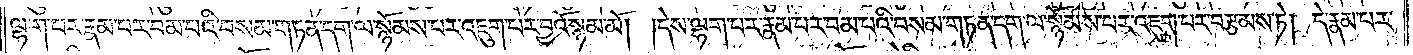ལྷག་པར་རྣམ་པར་བམ་པའི་བསམ་གཏན་དག་ལ་སྙོམས་པར་འཇུག་པར་བྱའོ་སྙམ་མོ། །དེས་ལྷག་པར་རྣམ་པར་བམ་པའི་བསམ་གཏན་དག་ལ་སྙོམས་པར་འཇུག་པར་བརྩམས་ཏེ། དེ་རྣམ་པར་
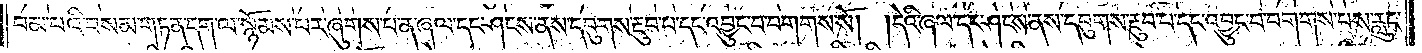བམ་པའི་བསམ་གཏན་དག་ལ་སྙོམས་པར་ཞུགས་པ་ན་ཞལ་དང་ཤངས་ནས་དབུགས་རྔུབ་པ་དང་འབྱུང་བ་བགགས་སོ། །དེའི་ཞལ་དང་ཤངས་ནས་དབུགས་རྔུབ་པ་དང་འབྱུང་བ་བགགས་པས་རླུང་
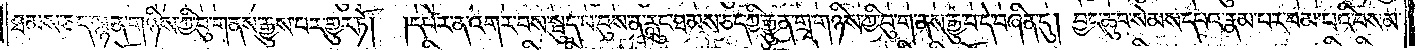ཐམས་ཅད་སྙན་གཉིས་ཀྱི་བུ་ནས་རྒྱུས་པར་གྱུར་ཏོ།  །དཔེར་ན་འགར་བས་སྦུད་པ་བུས་ན་རླུང་ཐམས་ཅད་ཀྱི་རྒྱུན་གྲྭ་གཉིས་ཀྱི་བུ་ནས་རྒྱུ་བ་དེ་བཞིན་དུ། བྱང་ཆུབ་སེམས་དཔའ་རྣམ་པར་བམ་པའི་བསམ་
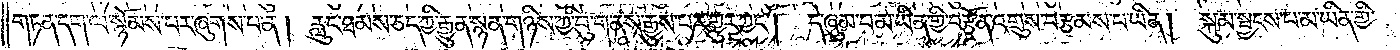གཏན་དག་ལ་སྙོམས་པར་ཞུགས་པ་ན། རླུང་ཐམས་ཅད་ཀྱི་རྒྱུན་སྙན་གཉིས་ཀྱི་བུ་གནས་རྒྱུས་པར་གྱུར་ཀྱང༌། དེ་ཞུམ་པ་མ་ཡིན་གྱི་བརྩོན་འགྲུས་བརྩམས་པ་ཡིན། སྐུ་མ་སྦྱངས་པ་མ་ཡིན་གྱི་
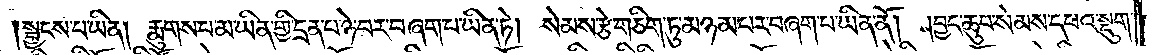སྦྱངས་པ་ཡིན། རྨུགས་པ་མ་ཡིན་གྱི་དྲན་པ་ཉེ་བར་བཞག་པ་ཡིན་ཏེ། སེམས་རྩེ་གཅིག་ཏུ་མཉམ་པར་བཞག་པ་ཡིན་ནོ། །བྱང་ཆུབ་སེམས་དཔའ་སྡུག་
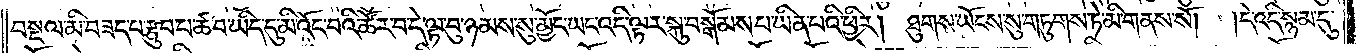བསྔལ་མི་བཟད་པ་རྩུབ་པ་ཚ་བ་ཡིད་དུ་མི་འོང་བའི་ཚོར་བ་དེ་ལྟ་བུ་ཉམས་སུ་མྱོང་ཡང་འདི་ལྟར་སྐུ་བསྒོམས་པ་ཡིན་པའི་ཕྱིར། ཐུགས་ཡོངས་སུ་གཏུགས་ཏེ་མི་གནས་སོ། །དེ་འདི་སྙམ་དུ་
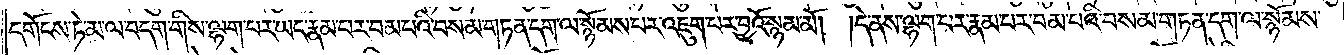དགོངས་ཏེ་མ་ལ་བདག་གིས་ལྷག་པར་ཡང་རྣམ་པར་བམ་པའི་བསམ་གཏན་དག་ལ་སྙོམས་པར་འཇུག་པར་བྱའོ་སྙམ་མོ། །དེ་ནས་ལྷག་པར་རྣམ་པར་བམ་པའི་བསམ་གཏན་དག་ལ་སྙོམས་
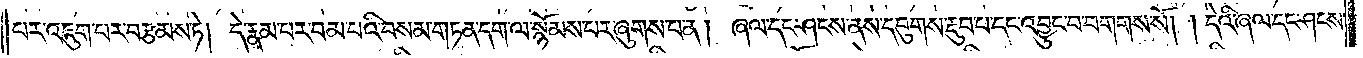པར་འཇུག་པར་བརྩམས་ཏེ། དེ་རྣམ་པར་བམ་པའི་བསམ་གཏན་དག་ལ་སྙོམས་པར་ཞུགས་པ་ན། ཞལ་དང་ཤངས་ནས་དབུགས་རྔུབ་པ་དང་འབྱུང་བ་བགགས་སོ། །དེའི་ཞལ་དང་ཤངས་
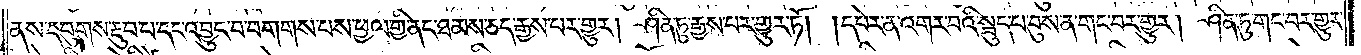ནས་དབུགས་རྔུབ་པ་དང་འབྱུང་བ་བགགས་པས་ཕྱལ་གྱི་ནང་ཐམས་ཅད་རྒྱས་པར་གྱུར། ཤིན་ཏུ་རྒྱས་པར་གྱུར་ཏོ། །དཔེར་ན་འགར་བའི་སྦུད་པ་བུས་ན་གང་བར་གྱུར། ཤིན་ཏུ་གང་བར་གྱུར་
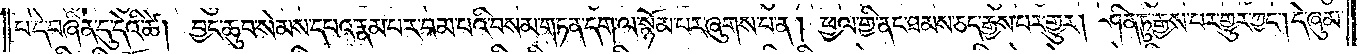པ་དེ་བཞིན་དུ་དེའི་ཚེ། བྱང་ཆུབ་སེམས་དཔའ་རྣམ་པར་བམ་པའི་བསམ་གཏན་དག་ལ་སྙོམས་པར་ཞུགས་པ་ན། ཕྱལ་གྱི་ནང་ཐམས་ཅད་རྒྱས་པར་གྱུར། ཤིན་ཏུ་རྒྱས་པར་གྱུར་ཀྱང༌། དེ་ཞུམ་
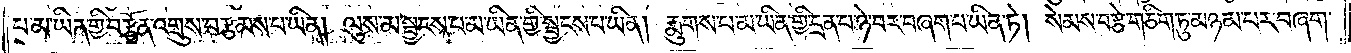པ་མ་ཡིན་གྱི་བརྩོན་འགྲུས་བརྩམས་པ་ཡིན། ལུས་མ་སྦྱངས་པ་མ་ཡིན་གྱི་སྦྱངས་པ་ཡིན། རྨུགས་པ་མ་ཡིན་གྱི་དྲན་པ་ཉེ་བར་བཞག་པ་ཡིན་ཏེ། སེམས་བརྩེ་གཅིག་ཏུ་མཉམ་པར་བཞག་
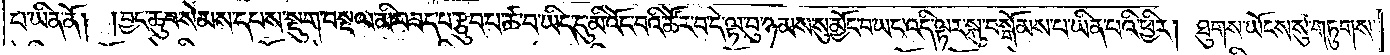པ་ཡིན་ནོ། །བྱང་ཆུབ་སེམས་དཔས་སྡུག་བསྔལ་མི་བཟད་པ་རྩུབ་པ་ཚ་བ་ཡིད་དུ་མི་འོང་བའི་ཚོར་བ་དེ་ལྟ་བུ་ཉམས་སུ་མྱོང་བ་ཡང་འདི་ལྟར་སྐུ་བསྒོམས་པ་ཡིན་པའི་ཕྱིར། ཐུགས་ཡོངས་སུ་གཏུགས་
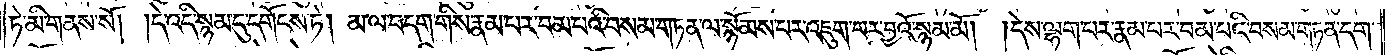ཏེ་མི་གནས་སོ། །དེ་འདི་སྙམ་དུ་དགོངས་ཏེ། མ་ལ་བདག་གིས་རྣམ་པར་བམ་པའི་བསམ་གཏན་ལ་སྙོམས་པར་འཇུག་པར་བྱའོ་སྙམ་མོ། །དེས་ལྷག་པར་རྣམ་པར་བམ་པའི་བསམ་གཏན་དག་
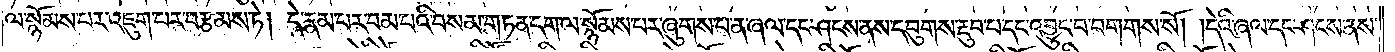ལ་སྙོམས་པར་འཇུག་པར་བརྩམས་ཏེ། དེ་རྣམ་པར་བམ་པའི་བསམ་གཏན་དག་ལ་སྙོམས་པར་ཞུགས་པ་ན་ཞལ་དང་ཤངས་ནས་དབུགས་རྔུབ་པ་དང་འབྱུང་བ་བགགས་སོ། །དེའི་ཞལ་དང་ཤངས་ནས་
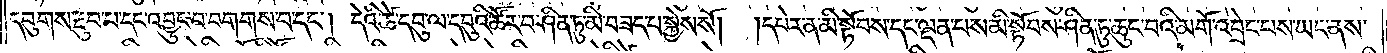དབུགས་རྔུབ་པ་དང་འབྱུང་བ་བགགས་པ་དང༌། དེའི་ཚེ་དབུ་ལ་དབུའི་ཚོར་བ་ཤིན་ཏུ་མི་བཟད་པ་སྐྱེས་སོ། །དཔེར་ན་མི་སྟོབས་དང་ལྡན་པས་མི་སྟོབས་ཤིན་ཏུ་ཆུང་བའི་མགོ་འབྲེང་པས་ཡང་ནས་
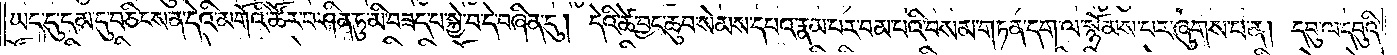ཡང་དུ་དམ་དུ་བཅིངས་ན་དེའི་མགོའི་ཚོར་བ་ཤིན་ཏུ་མི་བཟད་པ་སྐྱེ་བ་དེ་བཞིན་དུ། དེའི་ཚེ་བྱང་ཆུབ་སེམས་དཔའ་རྣམ་པར་བམ་པའི་བསམ་གཏན་དག་ལ་སྙོམས་པར་ཞུགས་པ་ན། དབུ་ལ་དབུའི་
